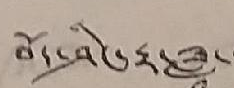བོད་ཤིང་རྟ་ཟླ་
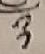༡༡
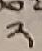༢
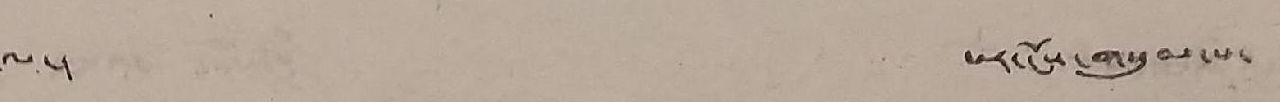ལ་། པར་ངོས་གསུམ་པ་
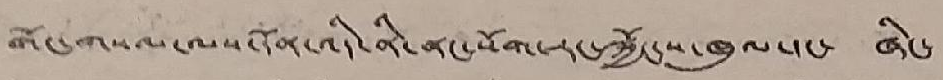གོང་གསལ་ལས་དོན་འདི་ནི་ནང་སོག་རང་སྐྱོང་ས་ཁུལ་དང་ ཞིང་
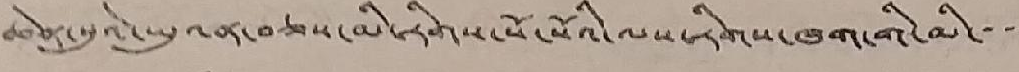ཆེན་སུའེ་ཡུའན་བཅས་མི་རིགས་སོ་སོའི་ལས་རིགས་ཁག་གི་མི་་་་
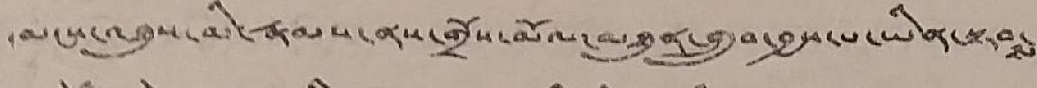མངས་འཐུས་མི་རྣམས་ནས་གྲོས་མོལ་མཐུན་གྲུབ་བྱས་པ་ཡིན་སྟབས་
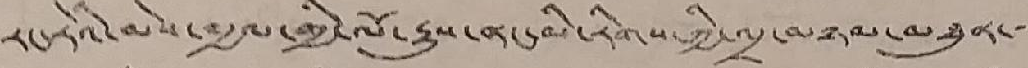རང་རེའི་མེས་༸རྒྱལ་གྱི་ལོ་རྒྱུས་ནང་མི་རིགས་ཀྱི་འདྲ་མཉམ་མཐུན་་་
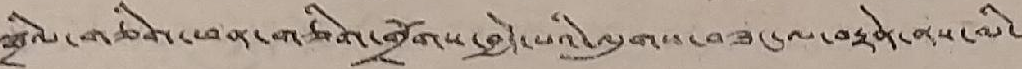སྒྲིལ་གཅིག་ཕན་གཅིག་གྲོགས་བྱེད་པའི་ལུགས་བཟང་ལ་བརྟེན་ནས་མི་
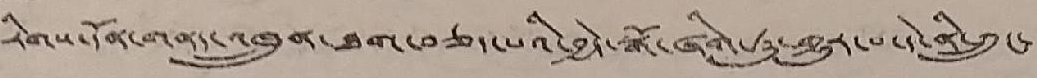རིགས་དོན་གནད་འཁྲུན་ཐག་བཅད་པའི་བྱེད་སྒོ་ཞིག་ཏུ་གྱུར་པ་དེ་ནི་ཀྲུང་
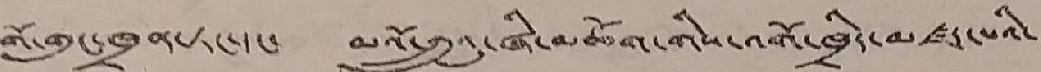གོ་གུང་ཁྲན་ཏང་དང་ མའོ་ཀྲུའུ་ཞི་མཆོག་གིས་འགོ་ཁྲིད་མཛད་པའི་
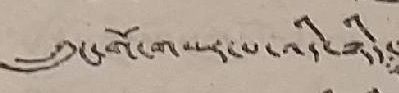ཀྲུང་གོ་གསར་པ་འདི་ཉིད་
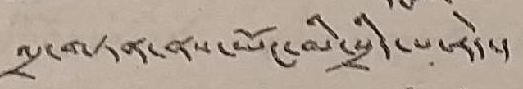འདྲ་གཏན་ནས་ཡོང་མི་སྲིད་པ་རེད་།
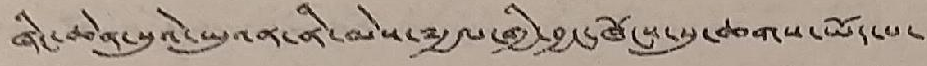ཞིང་ཆེན་སུའེ་ཡུའན་ནི་མེས་༸རྒྱལ་གྱི་བྱང་ཁོངས་སུ་ཆགས་ཡོད་པ་
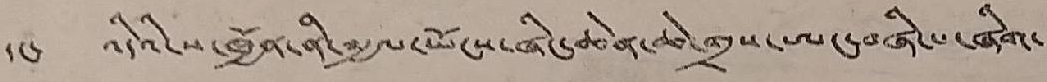དང་ འདིའི་ས་ཁྱོན་ནི་༸རྒྱལ་ཡོངས་ཞིང་ཆེན་ཆེ་གྲས་ཨང་བཞི་པ་ཞིག་
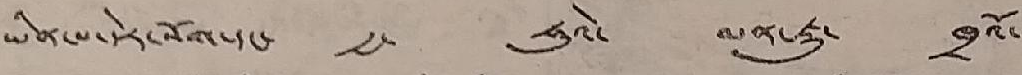ཡིན་པ་དེར་སོག་དང་ རྒྱ་ ཧུའེ་ མན་ཇུ་ ཁྲའོ་
